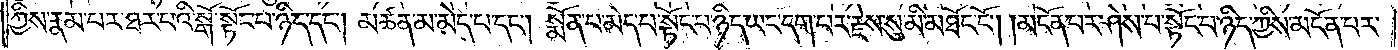ཀྱིས་རྣམ་པར་ཐར་པའི་སྒོ་སྟོང་པ་ཉིད་དང༌། མཚན་མ་མེད་པ་དང༌། སྨོན་པ་མེད་པ་སྟོང་པ་ཉིད་ཡང་དག་པར་རྗེས་སུ་མི་མཐོང་ངོ༌། །མངོན་པར་ཤེས་པ་སྟོང་པ་ཉིད་ཀྱིས་མངོན་པར་
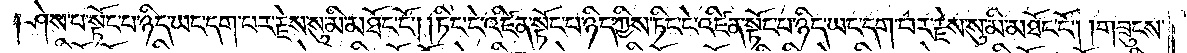ཤེས་པ་སྟོང་པ་ཉིད་ཡང་དག་པར་རྗེས་སུ་མི་མཐོང་ངོ༌། །ཏིང་ངེ་འཛིན་སྟོང་པ་ཉིད་ཀྱིས་ཏིང་ངེ་འཛིན་སྟོང་པ་ཉིད་ཡང་དག་པར་རྗེས་སུ་མི་མཐོང་ངོ༌། །གཟུངས་
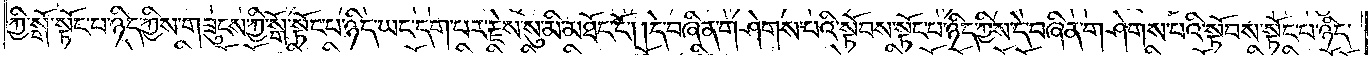ཀྱི་སྒོ་སྟོང་པ་ཉིད་ཀྱིས་གཟུངས་ཀྱི་སྒོ་སྟོང་པ་ཉིད་ཡང་དག་པར་རྗེས་སུ་མི་མཐོང་ངོ༌། །དེ་བཞིན་གཤེགས་པའི་སྟོབས་སྟོང་པ་ཉིད་ཀྱིས་དེ་བཞིན་གཤེགས་པའི་སྟོབས་སྟོང་པ་ཉིད་
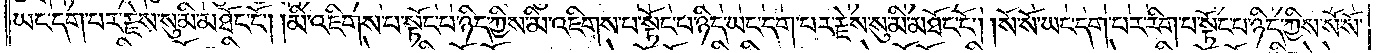ཡང་དག་པར་རྗེས་སུ་མི་མཐོང་ངོ༌། །མི་འཇིགས་པ་སྟོང་པ་ཉིད་ཀྱིས་མི་འཇིག་པ་སྟོང་པ་ཉིད་ཡང་དག་པར་རྗེས་སུ་མི་མཐོང་ངོ༌། །སོ་སོ་ཡང་དག་པར་རིག་པ་སྟོང་པ་ཉིད་ཀྱིས་སོ་སོ་
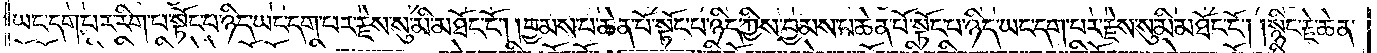ཡང་དག་པར་རིག་པ་སྟོང་པ་ཉིད་ཡང་དག་པར་རྗེས་སུ་མི་མཐོང་ངོ༌། །བྱམས་པ་ཆེན་པོ་སྟོང་པ་ཉིད་ཀྱིས་བྱམས་པ་ཆེན་པོ་སྟོང་པ་ཉིད་ཡང་དག་པར་རྗེས་སུ་མི་མཐོང་ངོ༌། །སྙིང་རྗེ་ཆེན་
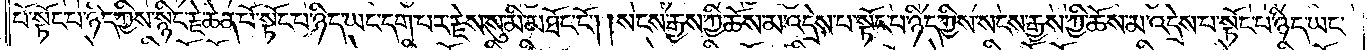པོ་སྟོང་པ་ཉིད་ཀྱིས་སྙིང་རྗེ་ཆེན་པོ་སྟོང་པ་ཉིད་ཡང་དག་པར་རྗེས་སུ་མི་མཐོང་ངོ༌། །སངས་རྒྱས་ཀྱི་ཆོས་མ་འདྲེས་པ་སྟོང་པ་ཉིད་ཀྱིས་སངས་རྒྱས་ཀྱི་ཆོས་མ་འདྲེས་པ་སྟོང་པ་ཉིད་ཡང་
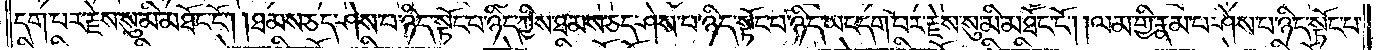དག་པར་རྗེས་སུ་མི་མཐོང་ངོ༌། །ཐམས་ཅད་ཤེས་པ་ཉིད་སྟོང་པ་ཉིད་ཀྱིས་ཐམས་ཅད་ཤེས་པ་ཉིད་སྟོང་པ་ཉིད་ཡང་དག་པར་རྗེས་སུ་མི་མཐོང་ངོ༌། །ལམ་གྱི་རྣམ་པ་ཤེས་པ་ཉིད་སྟོང་པ་
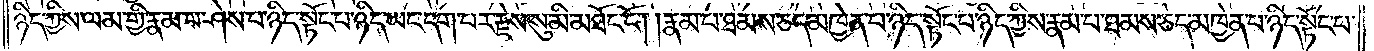ཉིད་ཀྱིས་ལམ་གྱི་རྣམ་པ་ཤེས་པ་ཉིད་སྟོང་པ་ཉིད་ཡང་དག་པར་རྗེས་སུ་མི་མཐོང་ངོ༌། །རྣམ་པར་ཐམས་ཅད་མཁྱེན་པ་ཉིད་སྟོང་པ་ཉིད་ཀྱིས་རྣམ་པ་ཐམས་ཅད་མཁྱེན་པ་ཉིད་སྟོང་པ་
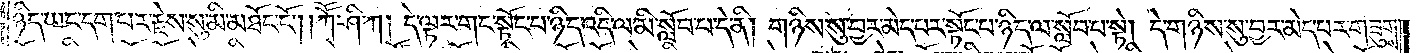ཉིད་ཡང་དག་པར་རྗེས་སུ་མི་མཐོང་ངོ༌། །ཀཽ་ཤི་ཀ། དེ་ལྟར་གང་སྟོང་པ་ཉིད་འདི་ལ་མི་སློབ་པ་དེ་ནི། གཉིས་སུ་བྱར་མེད་པར་སྟོང་པ་ཉིད་ལ་སློབ་པ་སྟེ། དེ་གཉིས་སུ་བྱར་མེད་པར་གཟུགས་
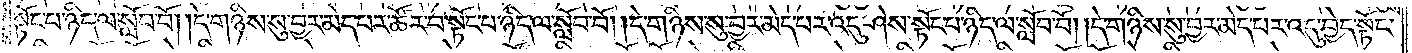སྟོང་པ་ཉིད་ལ་སློབ་བོ། །དེ་གཉིས་སུ་བྱར་མེད་པར་ཚོར་བ་སྟོང་པ་ཉིད་ལ་སློབ་བོ། །དེ་གཉིས་སུ་བྱར་མེད་པར་འདུ་ཤེས་སྟོང་པ་ཉིད་ལ་སློབ་བོ། །དེ་གཉིས་སུ་བྱར་མེད་པར་འདུ་བྱེད་སྟོང་
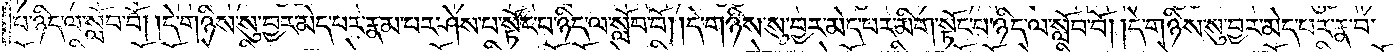པ་ཉིད་ལ་སློབ་བོ། །དེ་གཉིས་སུ་བྱར་མེད་པར་རྣམ་པར་ཤེས་པ་སྟོང་པ་ཉིད་ལ་སློབ་བོ། །དེ་གཉིས་སུ་བྱར་མེད་པར་མིག་སྟོང་པ་ཉིད་ལ་སློབ་བོ། །དེ་གཉིས་སུ་བྱར་མེད་པར་རྣ་བ་
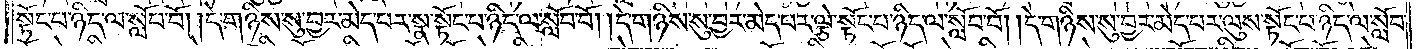སྟོང་པ་ཉིད་ལ་སློབ་བོ། །དེ་གཉིས་སུ་བྱར་མེད་པར་སྣ་སྟོང་པ་ཉིད་ལ་སློབ་བོ། །དེ་གཉིས་སུ་བྱར་མེད་པར་ལྕེ་སྟོང་པ་ཉིད་ལ་སློབ་བོ། །དེ་གཉིས་སུ་བྱར་མེད་པར་ལུས་སྟོང་པ་ཉིད་ལ་སློབ་
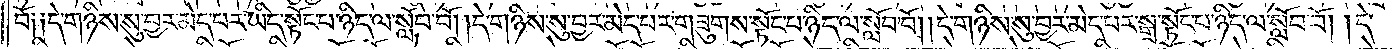བོ༑ ༑དེ་གཉིས་སུ་བྱར་མེད་པར་ཡིད་སྟོང་པ་ཉིད་ལ་སློབ་བོ། །དེ་གཉིས་སུ་བྱར་མེད་པར་གཟུགས་སྟོང་པ་ཉིད་ལ་སློབ་བོ། །དེ་གཉིས་སུ་བྱར་མེད་པར་སྒྲ་སྟོང་པ་ཉིད་ལ་སློབ་བོ། །དེ་
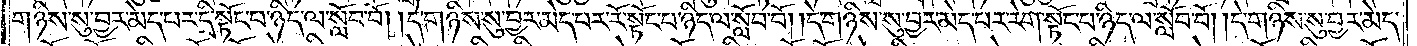གཉིས་སུ་བྱར་མེད་པར་དྲི་སྟོང་པ་ཉིད་ལ་སློབ་བོ། །དེ་གཉིས་སུ་བྱར་མེད་པར་རོ་སྟོང་པ་ཉིད་ལ་སློབ་བོ། །དེ་གཉིས་སུ་བྱར་མེད་པར་རེག་སྟོང་པ་ཉིད་ལ་སློབ་བོ། །དེ་གཉིས་སུ་བྱར་མེད་
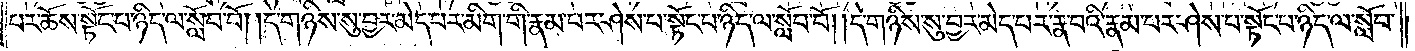པར་ཆོས་སྟོང་པ་ཉིད་ལ་སློབ་བོ། །དེ་གཉིས་སུ་བྱར་མེད་པར་མིག་གི་རྣམ་པར་ཤེས་པ་སྟོང་པ་ཉིད་ལ་སློབ་བོ། །དེ་གཉིས་སུ་བྱར་མེད་པར་རྣ་བའི་རྣམ་པར་ཤེས་པ་སྟོང་པ་ཉིད་ལ་སློབ་
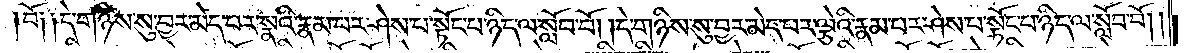བོ༑ ༑དེ་གཉིས་སུ་བྱར་མེད་པར་སྣའི་རྣམ་པར་ཤེས་པ་སྟོང་པ་ཉིད་ལ་སློབ་བོ། །དེ་གཉིས་སུ་བྱར་མེད་པར་ལྕེའི་རྣམ་པར་ཤེས་པ་སྟོང་པ་ཉིད་ལ་སློབ་བོ། །
